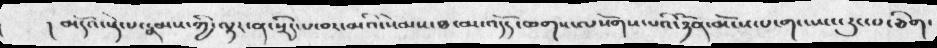། མདོའ་སྡེ་པ་རྣམས་ཀྱི་ལྟར་ན་སྲིད་པ་བར་མའི་སེམས་ཐ་མ་འདོད་ཆགས་ལསོགས་པའི་ཉོན་མོངས་པ་གང་ཡང་རུང་པ་ཅིག་
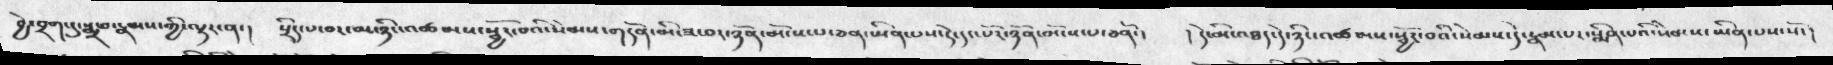བྱེ་བྲག་དུ་སྨྲ་བ་རྣམས་ཀྱི་ལྟར་ན་།   སྲིད་པ་བར་མ་ཉིང་འཚམས་སྦྱོར་བའི་སེམས་གདོན་མི་ཟ་བར་ཉོན་མོངས་པ་ཅན་ཡིན་པས་དེ་དང་པོར་ཉོན་མོངས་པ་ཅནོ་།   ། དེ་མི་འཐད་དེ་ཉིང་འཚམས་སྦྱོར་བའི་སེམས་དེ་རྣམ་པར་སྨིན་པའི་སེམས་ཡིན་པས་སོ་།
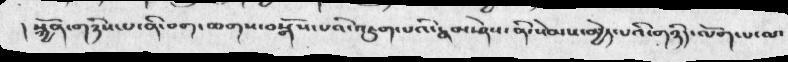། སྐྱོན་གཉིས་པ་ནི་བག་ཆགས་བསྒོས་པའི་འཇུག་པའི་རྣམ་ཤེས་ནི་སེམས་མྱེད་པའི་གཉིད་ལོག་པ་ལ་
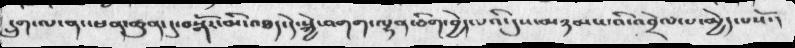དྲུག་ལ་ནང་ཕན་ཚུན་དུ་བསྒོར་མི་འཐད་དེ་སྐྱེ་འགག་ལྷན་ཅིག་བྱེད་པའི་དུས་མཉམས་པའི་འབྲེལ་བ་མྱེད་པསོ་།
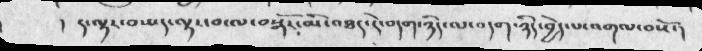།  ད་ལྟར་བ་པད་ལྟར་བ་ལ་བསྒོར་མི་འཐད་དེ་བདག་ཉིད་ལ་བདག་ཉིད་བྱེད་པ་འགལ་བསོ་།
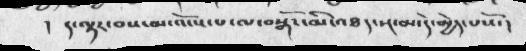། ད་ལྟར་བས་མ་འོངས་པ་ལ་བསྒོར་མི་འཐད་སྔ་མ་དེ་མྱེད་པསོ་།
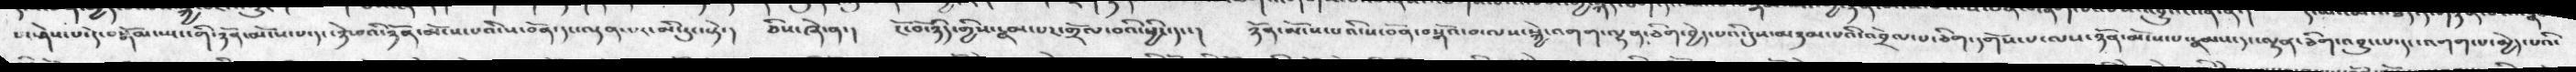པར་ཤེས་པ་དེ་བསྒོམ་སྤང་གི་ཉོན་མོངས་པ་དང་ཉེ་བའི་ཉོན་མོངས་པའི་ས་བོན་དང་ལྡན་པར་མི་རུང་སྟེ་།  ཅེས་ཞེ་ན་།  ངོ་བོ་ཉིད་གྱིས་རྣམ་པར་གྲོལ་བའི་ཕྱིར་དང་།   ཉོན་མོངས་པའི་ས་བོན་བསྒོའ་བ་ལས་སྐྱེ་འགག་ལྷན་ཅིག་བྱེད་པའི་དུས་མཉམ་པའི་འབྲེལ་པ་ཅིག་དགོས་པ་ལས་ཉོན་མོངས་པ་རྣམས་དང་ལྷན་ཅིག་འབྱུང་པ་དང་འགག་པ་མྱེད་པའི་
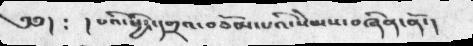༄༅།  ༴  ། པའི་ཕྱིར་དགྲའ་བཅོམ་པའི་སེམས་བཞིན་ནོ་།
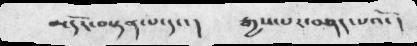མདོར་བསྟན་པ་དང་།   རྒྱས་པར་བཤད་པའོ་།
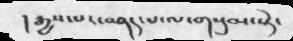། རྒྱས་པར་བཤད་པ་ལ་གསུམ་སྟེ་
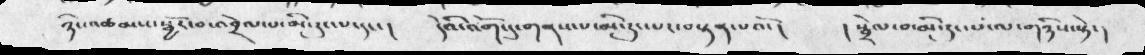ཉིང་མཚམས་སྦྱོར་བ་འབྲེལ་པ་མི་རུང་པ་དང་།   དེའི་འོག་དུ་གནས་པ་མི་རུང་པར་བསྟན་པའོ་།  ། སྦྲེལ་བ་མི་རུང་པ་ལ་གཉིས་སྟེ་།
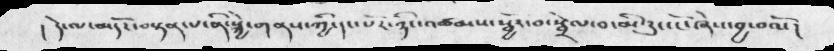། དེ་ལ་མདོར་བསྟན་པ་ནི་སྐྱེ་གནས་ཀྱི་དང་པོར་ཉིང་འཚམས་སྦྱོར་བ་སྦྲེལ་བ་མི་རུང་ངོ་ཞེས་བྱ་བའོ་ །
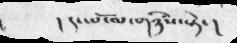། དང་པོ་ལ་གཉིས་སྟེ་།
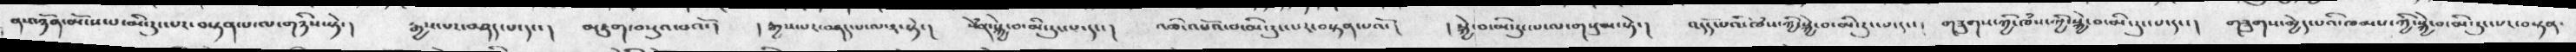ནས་ཉོན་མོངས་པ་མི་རུང་པར་བསྟན་པ་ལ་གཉིས་སྟེ་།   རྒྱས་པར་བཤད་པ་དང་།  མཇུག་བསུའ་བའོ་།  ། རྒྱས་པར་བཤད་པ་ལ་༢་སྟེ་།  སེཾན་སྐྱེ་བ་མི་རུང་པ་དང་།  འཆི་འཕོའ་བ་མི་རུང་པར་བསྟན་པའོ་།   ། སྐྱེ་བ་མི་རུང་པ་ལ་གསུམ་སྟེ་།  འདོད་པའི་ཁཾས་ཀྱི་སྐྱེ་བ་མི་རུང་པ་དང་་།   གཟུགས་ཀྱི་ཁཾས་ཀྱི་སྐྱེ་བ་མི་རུང་པ་དང་་།  གཟུགས་མྱེད་པའི་ཁམས་ཀྱི་སྐྱེ་བ་མི་རུང་པར་བསྟན་
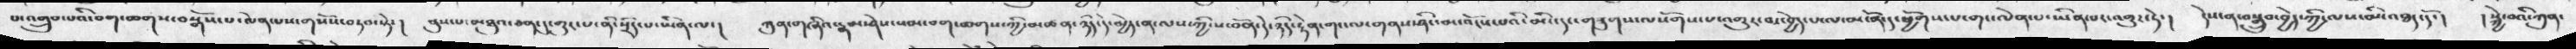པ་འགྲུབ་པའི་བག་ཆགས་བསྒོས་པ་ལེན་པས་གསོས་བཏབ་སྟེ་།   ནུས་པ་མཐུའ་ཅན་དུ་གུར་པ་ནི་སྲིད་པ་ཡིན་ལ་།  ཀུན་གཞིའ་རྣམ་ཤེས་སམ་བག་ཆགས་ཀྱི་མཚན་ཉིད་དེ་མྱེད་ན་ལས་ཀྱི་ས་བོན་དེ་ཉིད་རྟེན་གང་ལ་གནས་ཤིང་མ་འོངས་པའི་མིང་དང་གཟུགས་ལསོགས་པ་འགྱུར་མ་བྱེད་པ་ལ་མངོན་དུ་ཕྱོགས་པ་གང་ལེན་པ་ཡིན་པར་འགྱུར་ཏེ་།  དེས་ན་བསྒྲུབ་བྱེད་ཀྱི་ལས་མི་འཐད་དོ་།  ། སྐྱེ་བའི་ཀུན་
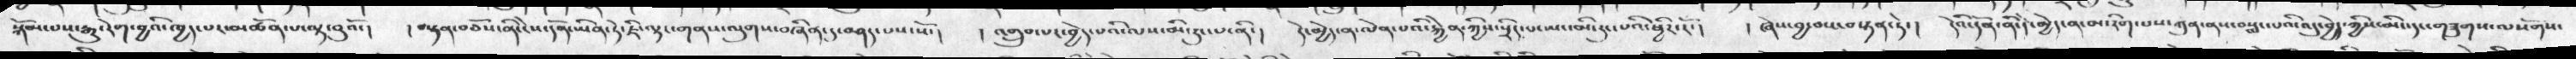སྐོམ་པས་རྒྱུ་རེག་བྱའི་ཁྱད་པར་མཚོན་པ་ལྟ་བུའོ་།  ། བསྟན་བཅོས་ནི་ངེས་དོན་ཡིན་ཏེ་ཇི་ལྟར་གནས་ལུགས་བཞིན་དུ་བཤད་པས་སོ་།   ། འགྲུབ་པར་བྱེད་པའི་ལས་མི་རུང་པ་ནི་།  དེ་མྱེད་ན་ལེན་པའི་རྐྱེན་ཀྱིས་སྲིད་པ་ཡང་མི་རུང་པའི་ཕྱིར་རོ་།  ། ཞེས་བྱ་བས་བསྟན་ཏེ་།  དེའི་དོན་ནི་དེ་མྱེད་ན་མ་རིག་པས་ཀུན་ནས་བསླང་པའི་འདུ་བྱེད་ཀྱིས་མིང་དང་གཟུགས་ལསོགས་
